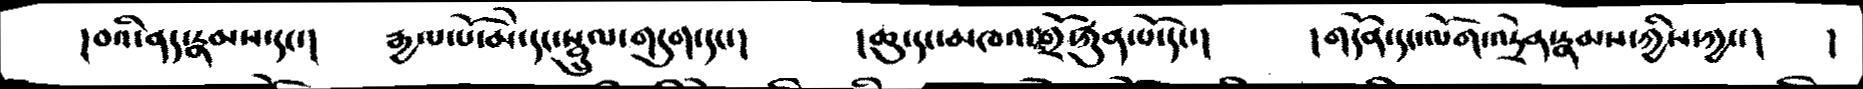།བའི་ནད་རྣམས་དང་།   རྒྱལ་པོ་མེ་དང་སྦྲུལ་གདུག་དང་།   །ཆུ་དང་མཁའ་གྲོ་རྐུན་པོ་དང་།  །གདོན་དང་ལོག་འདྲེན་རྣམས་ཀྱིས་ཀྱང་།  །
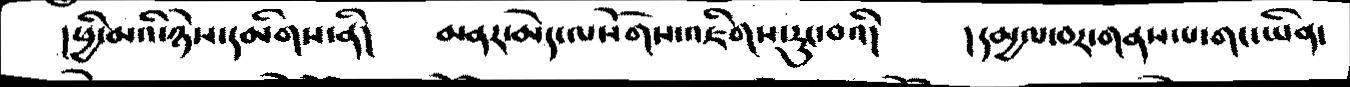།ཕྱི་མའི་ཉེས་དམིགས་ནི།   མནར་མེད་ལསོགས་འཇིགས་རུང་བའི།   །དམྱལ་བར་གནས་པ་གང་ཡིན་
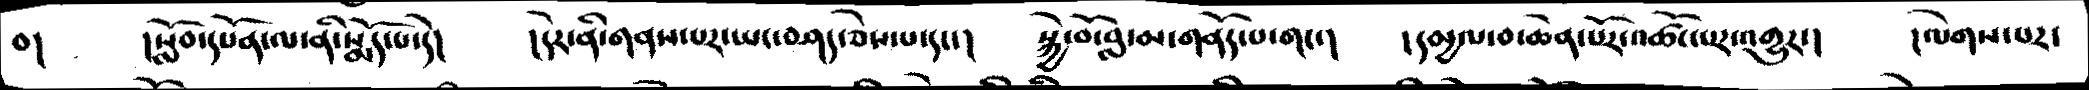བ།  །སློབ་དཔོན་ལ་ནི་སྨོད་པ་དེ་།   །དེར་ནི་གནས་པར་ཡང་བཤད་ཅེས་པ་དང་།  སྐྱེ་བོ་བླ་མ་གནོད་པ་གང་།  །དམྱལ་བ་ཆེན་པོར་འཚོང་པར་འགྱུར་།  །ལེགས་པར་
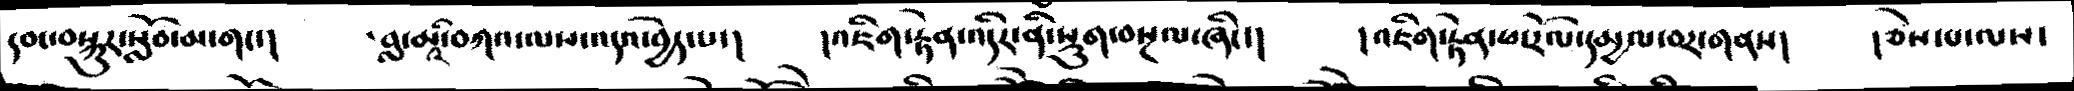དབང་བསྐུར་སློབ་མ་གང་།    བླ་མའི་བཀའ་ལས་འདའ་བྱེད་པ་།   །འཇིག་རྟེན་འདིར་ནི་སྡུག་བསྔལ་ཞིང་།   །འཇིག་རྟེན་ཕ་རོལ་དམྱལ་བར་གནས།  །ཅེས་པ་ལས་
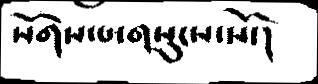སོགས་པ་གསུངས་སོ་།
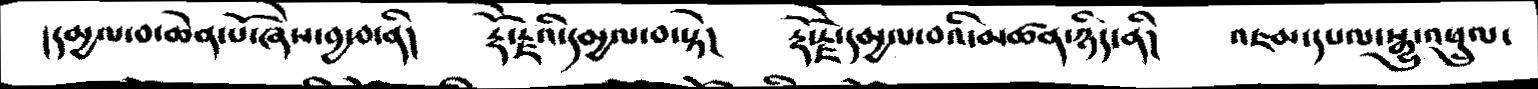།དམྱལ་བ་ཆེན་པོ་ཞེས་བྱ་བ་ནི།   རྡོ་རྗེའི་དམྱལ་བ་སྟེ།   རྡོ་རྗེ་དམྱལ་བའི་མཚན་ཉིད་ནི།   འཇམ་དཔལ་སྒྱུ་འཕྲུལ་
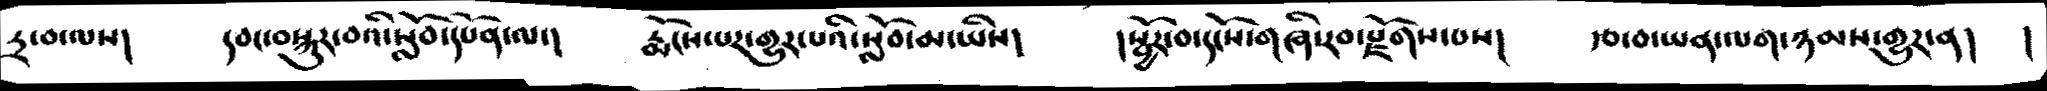དྲ་བ་ལས།   དབང་བསྐུར་བའི་སློབ་དཔོན་ལ་།   རྨོངས་པར་གྱུར་པའི་སློབ་མ་ཡིས།   །སྦྱོར་བ་དངོས་གཞི་རབ་རྫོགས་པས།   རྩ་བ་ཡན་ལག་ཉམས་གྱུར་ན།   །
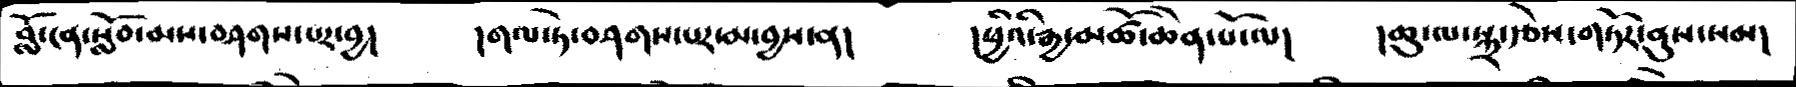བློ་ངན་སློབ་མས་བཤགས་པར་བྱ།   །གལ་ཏེ་བཤགས་པར་མ་བྱས་ན།   །ཕྱིའི་རྒྱ་མཚོ་ཆེན་པོ་ལ།    །ཆུ་ལ་སྐྲ་རྩེས་གཏོར་ནུས་སམ།
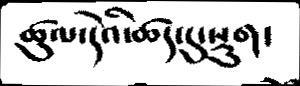ཚུལ་དེའི་ཚད་དུ་སྡུག་
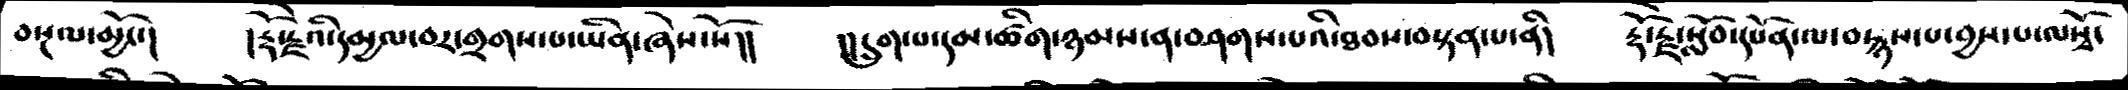བསྔལ་མྱོང་།   །རྡོ་རྗེའི་དམྱལ་བར་གྲགས་པ་ཡིན་ཞེས་སོ།།   །།དྲུག་པ་དམ་ཚིག་ཉམས་ན་བཤགས་པའི་ཐབས་བསྟན་པ་ནི།   རྡོ་རྗེ་སློབ་དཔོན་ལ་བརྙས་པ་བྱས་པ་ལསྭོ་
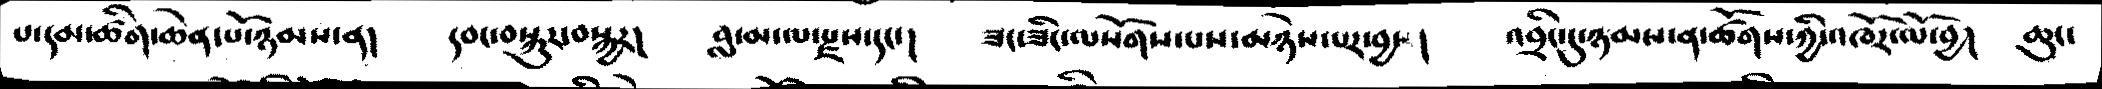པ་དམ་ཚིག་ཆེན་པོ་ཉམས་ན།   དབང་བསྐུར་བསྐྱར།   བླ་མ་ལ་རྫས་དང་།   ཟང་ཟིང་ལསོགས་པས་མཉེས་པར་བྱ་།  འབྲིང་དུ་ཉམས་ན་ཚོགས་ཀྱི་འཁོར་ལོ་བྱ།  ཆུང་
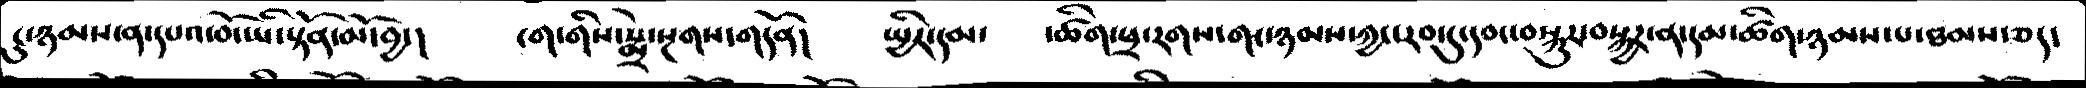ངུ་ཉམས་ན་དཔའ་བོ་ཡི་སྟོན་མོ་བྱ་།   ངག་གིས་སྨྲེ་སྔགས་གདོན།  སྤྱིར་དམ་  ་ཚིག་ཕྲ་རགས་གང་ཉམས་ཀྱང་རབ་ཏུ་དབང་བསྐུར་བསྐྱར་ན་དམ་ཚིག་ཉམས་པ་ཐམས་ཅད་
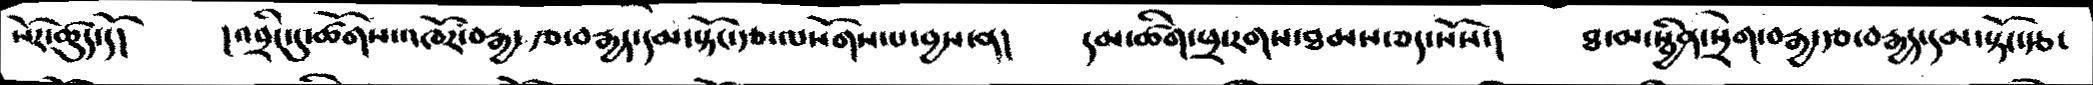སོར་ཚུད་དོ།   །འབྲིང་དུ་ཚོགས་འཁོར་བརྒྱ་རྩ་བརྒྱད་དམ་སྟོང་རྩ་ལསོགས་པ་བྱས་ན།   དམ་ཚིག་ཕྲ་རགས་ཐམས་ཅད་སོས་།  ཐ་མ་སྦྱིན་སྲེག་བརྒྱ་རྩ་བརྒྱད་དམ་སྟོང་རྩ་
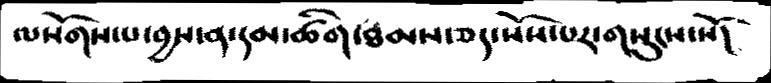ལསོགས་པ་བྱས་ན་དམ་ཚིག་ཐམས་ཅད་སོས་པར་གསུངས་སོ།
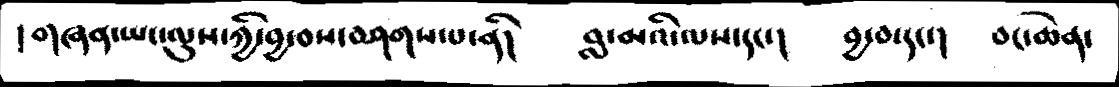། གཞན་ཡང་ལུས་ཀྱི་བྱ་བས་བཤགས་པ་ནི།  བླ་མའི་ལས་དང་།  བྱ་བ་དང་།   བང་ཆེན་
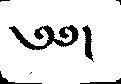༄༅།
